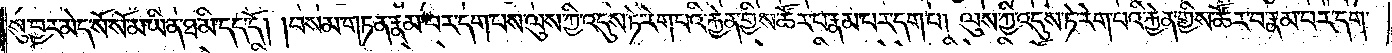སུ་བྱར་མེད་སོ་སོ་མ་ཡིན་ཐ་མི་དད་དོ། །བསམ་གཏན་རྣམ་པར་དག་པས་ལུས་ཀྱི་འདུས་ཏེ་རེག་པའི་རྐྱེན་གྱིས་ཚོར་བ་རྣམ་པར་དག་པ། ལུས་ཀྱི་འདུས་ཏེ་རེག་པའི་རྐྱེན་གྱིས་ཚོར་བ་རྣམ་པར་དག་
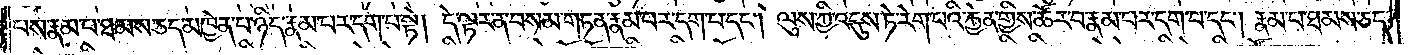པས་རྣམ་པ་ཐམས་ཅད་མཁྱེན་པ་ཉིད་རྣམ་པར་དག་པ་སྟེ། དེ་ལྟར་ན་བསམ་གཏན་རྣམ་པར་དག་པ་དང༌། ལུས་ཀྱི་འདུས་ཏེ་རེག་པའི་རྐྱེན་གྱིས་ཚོར་བ་རྣམ་པར་དག་པ་དང༌། རྣམ་པ་ཐམས་ཅད་
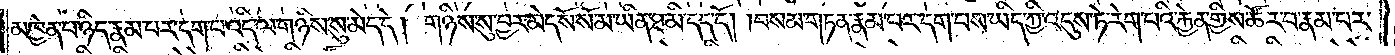མཁྱེན་པ་ཉིད་རྣམ་པར་དག་པ་འདི་ལ་གཉིས་སུ་མེད་དེ། གཉིས་སུ་བྱར་མེད་སོ་སོ་མ་ཡིན་ཐ་མི་དད་དོ། །བསམ་གཏན་རྣམ་པར་དག་པས་ཡིད་ཀྱི་འདུས་ཏེ་རེག་པའི་རྐྱེན་གྱིས་ཚོར་བ་རྣམ་པར་
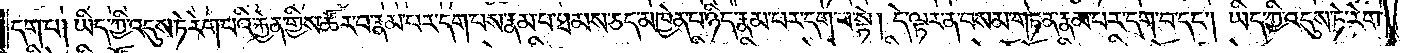དག་པ། ཡིད་ཀྱི་འདུས་ཏེ་རེག་པའི་རྐྱེན་གྱིས་ཚོར་བ་རྣམ་པར་དག་པས་རྣམ་པ་ཐམས་ཅད་མཁྱེན་པ་ཉིད་རྣམ་པར་དག་པ་སྟེ། དེ་ལྟར་ན་བསམ་གཏན་རྣམ་པར་དག་པ་དང༌། ཡིད་ཀྱི་འདུས་ཏེ་རེག་
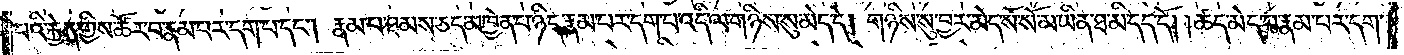པའི་རྐྱེན་གྱིས་ཚོར་བ་རྣམ་པར་དག་པ་དང༌། རྣམ་པ་ཐམས་ཅད་མཁྱེན་པ་ཉིད་རྣམ་པར་དག་པ་འདི་ལ་གཉིས་སུ་མེད་དེ། གཉིས་སུ་བྱར་མེད་སོ་སོ་མ་ཡིན་ཐ་མི་དད་དོ། །ཚད་མེད་པ་རྣམ་པར་དག་
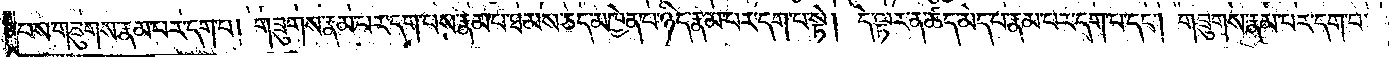པས་གཟུགས་རྣམ་པར་དག་པ། གཟུགས་རྣམ་པར་དག་པས་རྣམ་པ་ཐམས་ཅད་མཁྱེན་པ་ཉིད་རྣམ་པར་དག་པ་སྟེ། དེ་ལྟར་ན་ཚད་མེད་པ་རྣམ་པར་དག་པ་དང༌། གཟུགས་རྣམ་པར་དག་པ་
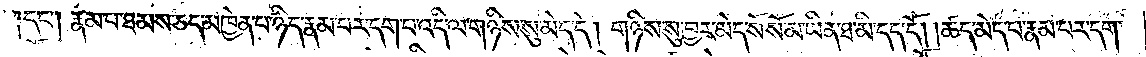དང༌། རྣམ་པ་ཐམས་ཅད་མཁྱེན་པ་ཉིད་རྣམ་པར་དག་པ་འདི་ལ་གཉིས་སུ་མེད་དེ། གཉིས་སུ་བྱར་མེད་སོ་སོ་མ་ཡིན་ཐ་མི་དད་དོ། །ཚད་མེད་པ་རྣམ་པར་དག་
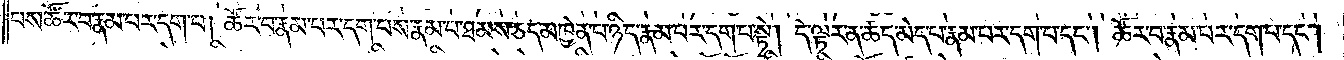པས་ཚོར་བ་རྣམ་པར་དག་པ། ཚོར་བ་རྣམ་པར་དག་པས་རྣམ་པ་ཐམས་ཅད་མཁྱེན་པ་ཉིད་རྣམ་པར་དག་པ་སྟེ། དེ་ལྟར་ན་ཚད་མེད་པ་རྣམ་པར་དག་པ་དང༌། ཚོར་བ་རྣམ་པར་དག་པ་དང༌།
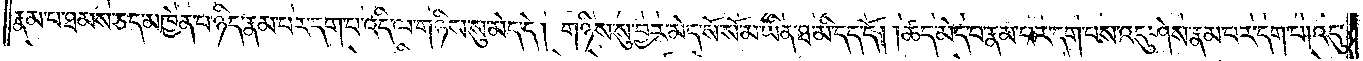རྣམ་པ་ཐམས་ཅད་མཁྱེན་པ་ཉིད་རྣམ་པར་དག་པ་འདི་ལ་གཉིས་སུ་མེད་དེ། གཉིས་སུ་བྱར་མེད་སོ་སོ་མ་ཡིན་ཐ་མི་དད་དོ། །ཚད་མེད་པ་རྣམ་པར་དག་པས་འདུ་ཤེས་རྣམ་པར་དག་པ། འདུ་
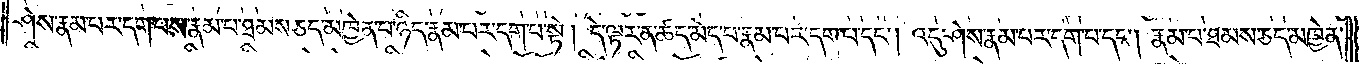ཤེས་རྣམ་པར་དག་པས་རྣམ་པ་ཐམས་ཅད་མཁྱེན་པ་ཉིད་རྣམ་པར་དག་པ་སྟེ། དེ་ལྟར་ན་ཚད་མེད་པ་རྣམ་པར་དག་པ་དང༌། འདུ་ཤེས་རྣམ་པར་དག་པ་དང༌། རྣམ་པ་ཐམས་ཅད་མཁྱེན་
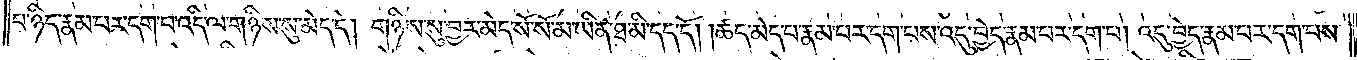པ་ཉིད་རྣམ་པར་དག་པ་འདི་ལ་གཉིས་སུ་མེད་དེ། གཉིས་སུ་བྱར་མེད་སོ་སོ་མ་ཡིན་ཐ་མི་དད་དོ། །ཚད་མེད་པ་རྣམ་པར་དག་པས་འདུ་བྱེད་རྣམ་པ་དག་པ། འདུ་བྱེད་རྣམ་པར་དག་པས་
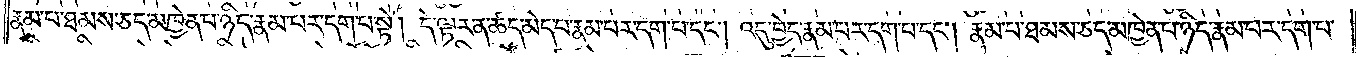རྣམ་པ་ཐམས་ཅད་མཁྱེན་པ་ཉིད་རྣམ་པར་དག་པ་སྟེ། དེ་ལྟར་ན་ཚད་མེད་པ་རྣམ་པར་དག་པ་དང༌། འདུ་བྱེད་རྣམ་པར་དག་པ་དང༌། རྣམ་པ་ཐམས་ཅད་མཁྱེན་པ་ཉིད་རྣམ་པར་དག་པ་
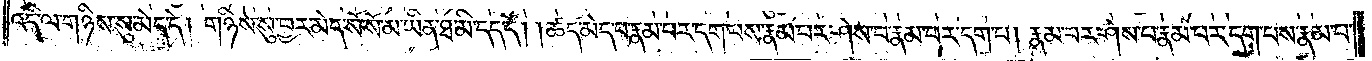འདི་ལ་གཉིས་སུ་མེད་དེ། གཉིས་སུ་བྱར་མེད་སོ་སོ་མ་ཡིན་ཐ་མི་དད་དོ། །ཚད་མེད་པ་རྣམ་པར་དག་པས་རྣམ་པར་ཤེས་པ་རྣམ་པར་དག་པ། རྣམ་པར་ཤེས་པ་རྣམ་པར་དག་པས་རྣམ་པ་
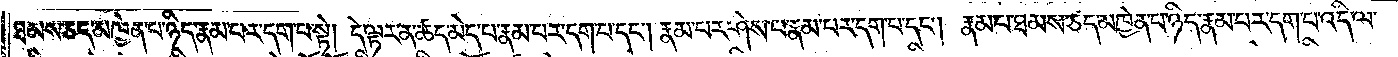ཐམས་ཅད་མཁྱེན་པ་ཉིད་རྣམ་པར་དག་པ་སྟེ། དེ་ལྟར་ན་ཚད་མེད་པ་རྣམ་པར་དག་པ་དང༌། རྣམ་པར་ཤེས་པ་རྣམ་པར་དག་པ་དང༌། རྣམ་པ་ཐམས་ཅད་མཁྱེན་པ་ཉིད་རྣམ་པར་དག་པ་འདི་ལ་
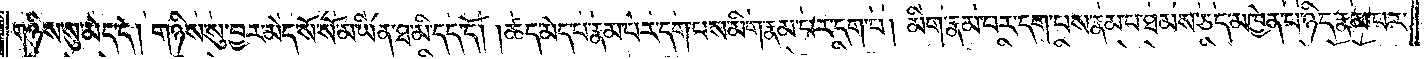གཉིས་སུ་མེད་དེ། གཉིས་སུ་བྱར་མེད་སོ་སོ་མ་ཡིན་ཐ་མི་དད་དོ། །ཚད་མེད་པ་རྣམ་པར་དག་པས་མིག་རྣམ་པར་དག་པ། མིག་རྣམ་པར་དག་པས་རྣམ་པ་ཐམས་ཅད་མཁྱེན་པ་ཉིད་རྣམ་པར་
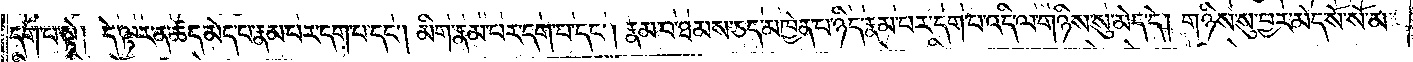དག་པ་སྟེ། དེ་ལྟར་ན་ཚད་མེད་པ་རྣམ་པར་དག་པ་དང༌། མིག་རྣམ་པར་དག་པ་དང༌། རྣམ་པ་ཐམས་ཅད་མཁྱེན་པ་ཉིད་རྣམ་པར་དག་པ་འདི་ལ་གཉིས་སུ་མེད་དེ། གཉིས་སུ་བྱར་མེད་སོ་སོ་མ་
